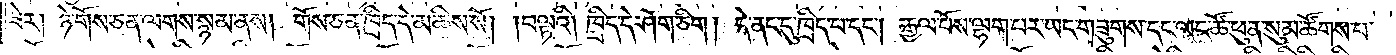ཟེར། ཉེ་གོས་ཅན་ལགས་སྙམ་ནས། གོས་ཅན་ཁྲིད་དེ་མཆིས་སོ། །བལྟའི། ཁྲིད་དེ་ཤོག་ཅིག། དེ་ནང་དུ་ཁྲིད་པ་དང༌། རྒྱལ་པོས་ལྷག་པར་ཡང་གཟུགས་དང་ལང་ཚོ་ཕུན་སུམ་ཚོགས་པ་
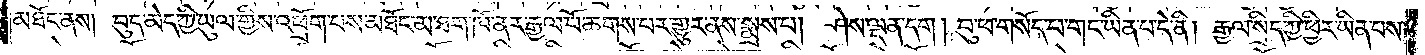མཐོང་ནས། བུད་མེད་ཀྱི་ཡུལ་གྱིས་འཕྲོག་པས་མཐོང་མ་ཐག་ཁོ་ནར་རྒྱལ་པོ་ཆགས་པར་གྱུར་ནས་སྨྲས་པ། ཤེས་ལྡན་དག། བུ་ཕ་གསོད་པ་གང་ཡིན་པ་དེ་ནི། རྒྱལ་སྲིད་ཀྱི་ཕྱིར་ཡིན་པས་
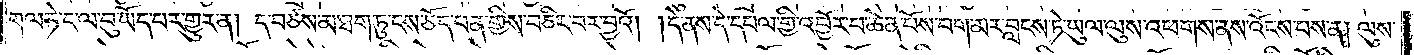གལ་ཏེ་ང་ལ་བུ་ཡོད་པར་གྱུར་ན། ད་བཙས་མ་ཐག་ཏུ་ངས་ཅོད་པན་གྱིས་བཅིང་བར་བྱའོ། །དེ་ནས་དེ་དཔལ་གྱི་འབྱོར་པ་ཆེན་པོས་བག་མར་བླངས་ཏེ་ཡུལ་ལུས་འཕགས་ནས་འོངས་པས་ན། ལུས་
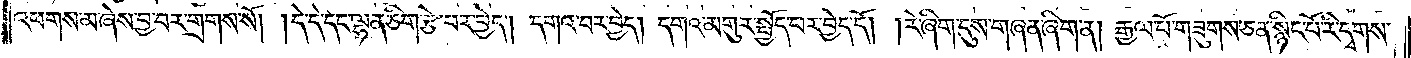འཕགས་མ་ཞེས་བྱ་བར་གྲགས་སོ། །དེ་དེ་དང་ལྷན་ཅིག་རྩེ་བར་བྱེད། དགའ་བར་བྱེད། དགའ་མགུར་སྤྱོད་པར་བྱེད་དོ། །རེ་ཞིག་དུས་གཞན་ཞིག་ན། རྒྱལ་པོ་གཟུགས་ཅན་སྙིང་པོ་རི་དྭགས་
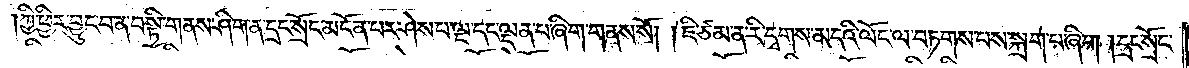།ཀྱི་ཕྱིར་བྱུང་བ་ན་བསྟི་གནས་ཤིག་ན་དྲང་སྲོང་མངོན་པར་ཤེས་པ་ལྔ་དང་ལྡན་བ་ཞིག་གནས་སོ། །ཇི་ཙམ་ན་རི་དྭགས་མདའི་ལོང་ལ་བཏགས་པས་སྐྲག་པ་ཞིག། དྲང་སྲོང་
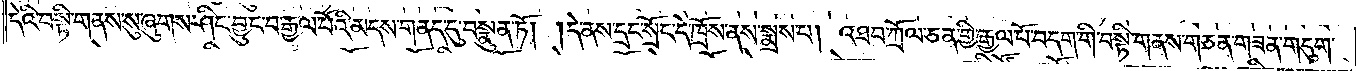དེའི་བསྟི་གནས་སུ་ཞུགས་ཤིང་བྱུང་བ་རྒྱལ་པོའི་མདས་གནད་དུ་བསྣུན་ཏོ། །དེ་ནས་དྲང་སྲོང་དེ་ཁྲོས་ནས་སྨྲས་པ། འཐབ་ཀྲོལ་ཅན་གྱི་རྒྱལ་པོ་བདག་གི་བསྟི་གནས་གཅན་གཟན་གདུག་
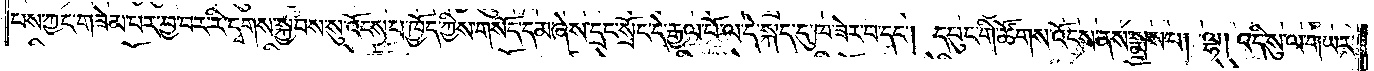པས་ཀྱང་གཟེམ་པར་བྱ་བར་རི་དྭགས་སྐྱབས་སུ་འོངས་པ་ཁྱོད་ཀྱིས་གསོད་དམ་ཞེས་དྲང་སྲོང་དེ་རྒྱལ་པོ་ལ་དེ་སྐད་དུ་ཁ་ཟེར་བ་དང༌། དཔུང་གི་ཚོགས་འོངས་ནས་སྨྲས་པ། ལྷ། འདི་སུ་ལ་གཡར་
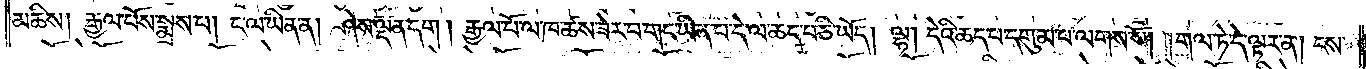མཆིས། རྒྱལ་པོས་སྨྲས་པ། ང་ལ་ཡིན་ན། ཤེས་ལྡན་དག། རྒྱལ་པོ་ལ་ཁ་ཚས་ཟེར་བ་གང་ཡིན་པ་དེ་ལ་ཆད་པ་ཅི་ཡོད། ལྷ། དེའི་ཆད་པ་དགུམ་པ་ལགས་སོ། །གལ་ཏེ་དེ་ལྟར་ན། ངས་
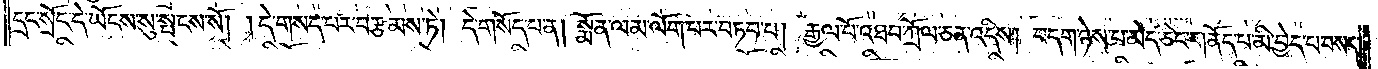དྲང་སྲོང་དེ་ཡོངས་སུ་སྤངས་སོ། །དེ་གསད་པར་བརྩམས་ཏེ། དེ་གསོད་པ་ན། སྨོན་ལམ་ལོག་པར་བཏབ་པ། རྒྱལ་པོ་འཐབ་ཀྲོལ་ཅན་འདིས། བདག་ཉེས་པ་མེད་ཅིང་གནོད་པ་མི་བྱེད་པ་བསད་
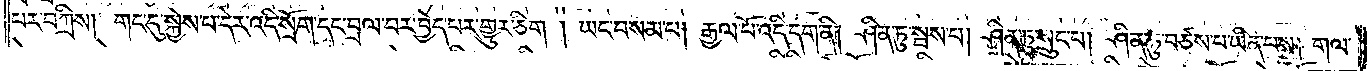པར་བཀྲིས། གང་དུ་སྐྱེས་པ་དེར་འདི་སྲོག་དང་བྲལ་བར་བྱེད་པར་གྱུར་ཅིག། ཡང་བསམ་པ། རྒྱལ་པོ་འདི་དག་ནི། ཤིན་ཏུ་སྦས་པ། ཤིན་ཏུ་སྲུང་པ། ཤིན་ཏུ་བཙས་པ་ཡིན་པས། གལ་
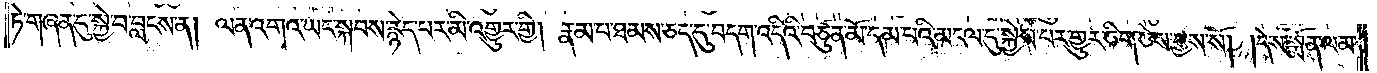ཏེ་གཞན་དུ་སྐྱེ་བ་བླངས་ན། ལན་འགའ་ཡང་སྐབས་རྙེད་པར་མི་འགྱུར་གྱི། རྣམ་པ་ཐམས་ཅད་དུ་བདག་འདིའི་བཙུན་མོ་དམ་པའི་མངལ་དུ་སྐྱེས་པར་གྱུར་ཅིག་ཅེས་བྱས་སོ། །དེས་སྨོན་ལམ་
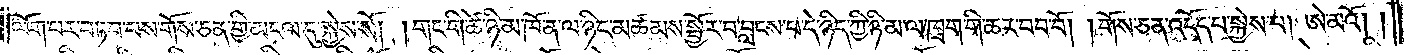ལོག་པར་བཏབ་པས་གོས་ཅན་གྱི་མངལ་དུ་སྐྱེས་སོ། །གང་གི་ཚེ་ཉི་མ་ཁོ་ན་ལ་ཉིང་མཚམས་སྦྱོར་བ་བླངས་པ་དེ་ཉིད་ཀྱི་ཉི་མ་ལ་ཁྲག་གི་ཆར་བབ་བོ། །གོས་ཅན་འདོད་པ་སྐྱེས་པ། ཨེ་མའོ། །
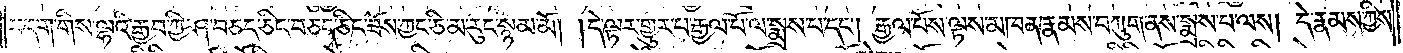བདག་གིས་ལྷའི་རྒྱབ་ཀྱི་ཤ་བཅད་ཅིང་བཅད་ཅིང་ཟོས་ཀྱང་ཅི་མ་རུང་སྙམ་མོ། །དེ་ལྟར་གྱུར་པ་རྒྱལ་པོ་ལ་སྨྲས་པ་དང༌། རྒྱལ་པོས་ལྟས་མཁན་རྣམས་བཀུག་ནས་སྨྲས་པ་ལས། དེ་རྣམས་ཀྱིས་
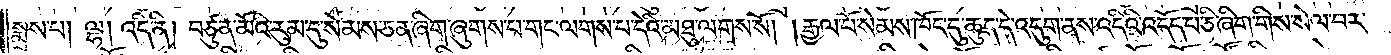སྨྲས་པ། ལྷ། འདི་ནི། བཙུན་མོའི་རུམ་དུ་སེམས་ཅན་ཞིག་ཞུགས་པ་གང་ལགས་པ་དེའི་མཐུ་ལགས་སོ། །རྒྱལ་པོ་སེམས་ཁོང་དུ་ཆུད་དེ་འདུག་ནས་འདིའི་འདོད་པ་ཅི་ཞིག་གིས་སེལ་བར་
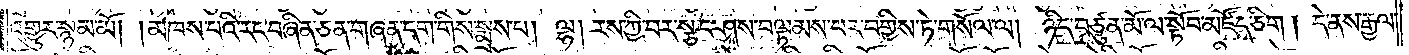འགྱུར་སྙམ་མོ། །མཁས་པའི་རང་བཞིན་ཅན་གཞན་དག་གིས་སྨྲས་པ། ལྷ། རས་ཀྱི་བར་སྩང་ཤས་བལྟམས་པར་བགྱིས་ཏེ་གསོལ་ལ། ཉིད་བཙུན་མོ་ལ་སྟོབ་མཛོད་ཅིག། དེ་ནས་རྒྱལ་
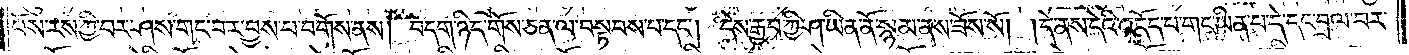པོས་རས་ཀྱི་བར་ཤས་གང་བར་བྱས་པ་བགོས་ནས། བདག་ཉིད་གོས་ཅན་ལ་བསྟབས་པ་དང༌། དེས་རྒྱབ་ཀྱི་ཤ་ཡིན་ནོ་སྙམ་ནས་ཟོས་སོ། །དེ་ནས་དེའི་འདོད་པ་གང་ཡིན་པ་དེ་དང་བྲལ་བར་
